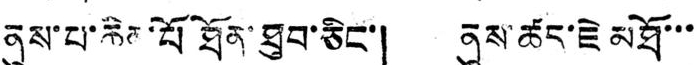ནུས་པ་ཆིན་པོ ཐོན་ཐུབ་ཅིང་། ནུས་ཚད་ཇེ མཐོ་་་
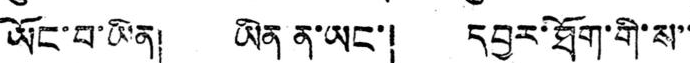ཡོང་བ་ཡིན། ཡིན་ན་ཡང་། དབྱར་ཐོག་གི་ས་་
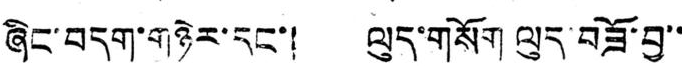ཞིང་བདག་གཉེར་དང་། ལུད་གསོག ལུད་བཟོ་བྱ་་་
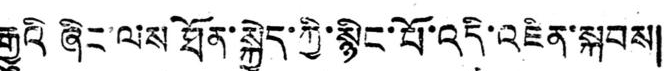རྒྱུའི ཞིང་ལས ཐོན་སྐྱེད་ཀྱི་སྙིང་པོ་འདི་འཛིན་སྐབས།
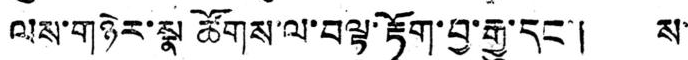ལས་གཉེར་སྣ ཚོགས་ལ་བལྟ་རྟོག་བྱ་རྒྱུ་དང་། ས་་
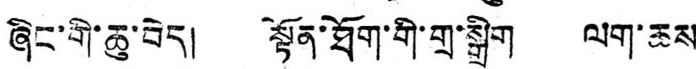ཞིང་གི་ཆུ་བེད། སྟོན་ཐོག་གི་གྲ་སྒྲིག ལག་ཆས
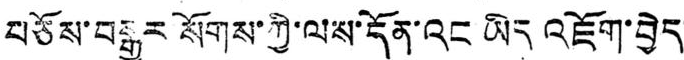བཅོས་བསྒྱུར སོགས་ཀྱི་ལས་དོན་འང ཡིད འཇོག་བྱེད་
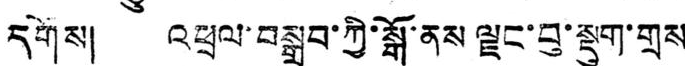དགོས། འཕྲལ་བསྒྲུབ་ཀྱི་སྒོ་ནས ལྗང་བུ་སྡུག་གྲས་
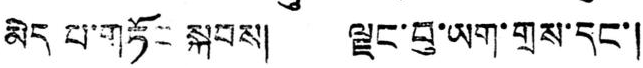མེད པ་གཏོང སྐབས། ལྗང་བུ་ཡག་གྲས་དང་།
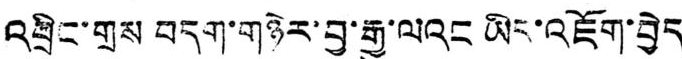འབྲིང་གྲས བདག་གཉེར་བྱ་རྒྱུ་ལའང ཡིད་འཇོག་བྱེད་
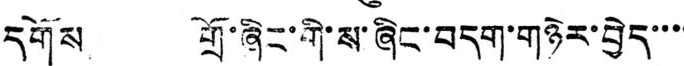དགོས། གྲོ་ཞིང་གི་ས་ཞིང་བདག་གཉེར་བྱེད་་་་
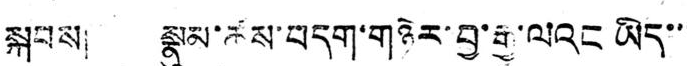སྐབས། སྣུམ་ཚས་བདག་གཉེར་བྱ་རྒྱུ་ལའང ཡིད་་་
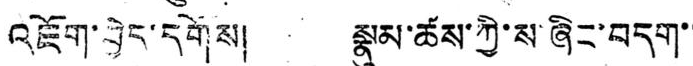འཇོག་བྱེད་དགོས། སྣུམ་ཚས་ཀྱི་ས་ཞིང་བདག་་
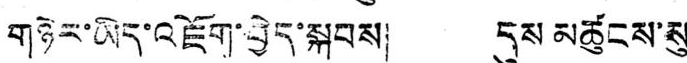གཉེར་ཡིད་འཇོག་བྱེད་སྐབས། དུས མཚུངས་སུ་
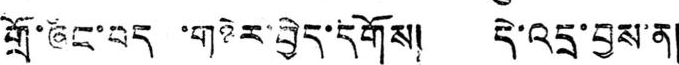གྲོ་ཞིང་བདག་གཉེར་བྱེད་དགོས། དེ་འདྲ་བྱས་ན།
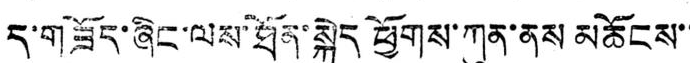ད་གཟོད་ཞིང་ལས་ཐོན་སྐྱེད ཕྱོགས་ཀུན་ནས མཆོངས་་
